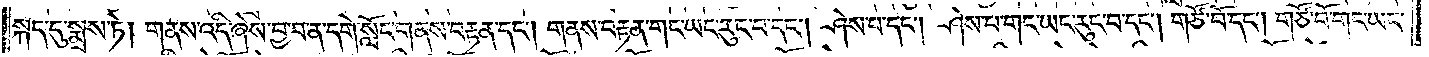སྐད་དུ་སྨྲས་ཏེ། གནས་འདི་ཞེས་བྱ་བ་ན་དགེ་སློང་གནས་བརྟན་དང༌། གནས་བརྟན་གང་ཡང་རུང་བ་དང༌། ཤེས་པ་དང༌། ཤེས་པ་གང་ཡང་རུང་བ་དང༌། གཙོ་བོ་དང༌། གཙོ་བོ་གང་ཡང་
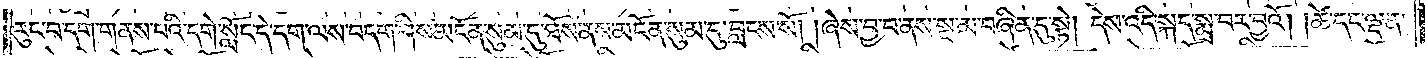རུང་བ་དག་གནས་པའི་དགེ་སློང་དེ་དག་ལས་བདག་གིས་མངོན་སུམ་དུ་ཐོས་ནས་མངོན་སུམ་དུ་བླངས་སོ། །ཞེས་བྱ་བ་ནས་སྔ་མ་བཞིན་དུ་སྟེ། དེས་འདི་སྐད་སྨྲ་བར་བྱའོ། །ཚེ་དང་ལྡན་
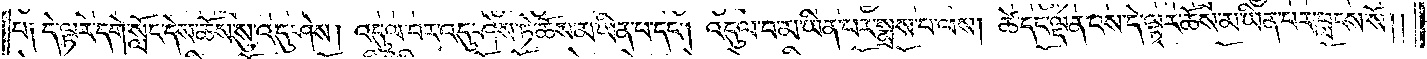པ༑ དེ་ལྟར་དགེ་སློང་དེས་ཆོས་སུ་འདུ་ཤེས། འདུལ་བར་འདུ་ཤེས་ཏེ་ཆོས་མ་ཡིན་པ་དང༌། འདུལ་བ་མ་ཡིན་པར་སྨྲས་པ་ལས། ཚེ་དང་ལྡན་པས་དེ་ལྟར་ཆོས་མ་ཡིན་པར་བླངས་སོ། །
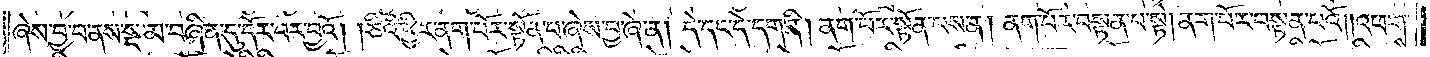ཞེས་བྱ་བ་ནས་སྔ་མ་བཞིན་དུ་དོར་བར་བྱའོ། །ཅིའི་ཕྱིར་ནག་པོར་སྟོན་པ་ཞེས་བྱ་ཞེ་ན། དེ་དང་དེ་དག་ནི། ནག་པོར་སྟོན་པས་ན། ནག་པོར་བསྟན་པ་སྟེ། ནག་པོར་བསྟན་པའོ། །འཕགས་
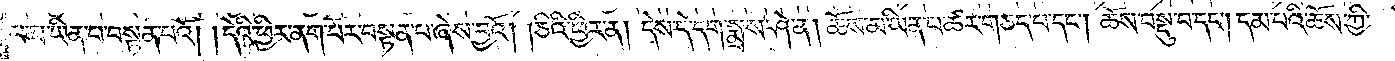པ་མ་ཡིན་པ་བསྟན་པའོ། །དེའི་ཕྱིར་ནག་པོར་བསྟན་པ་ཞེས་བྱའོ། །ཅིའི་ཕྱིར་ན། དེས་དེ་དག་སྨྲས་ཤེ་ན། ཆོས་མ་ཡིན་པ་ཚར་གཅད་པ་དང༌། ཆོས་བསྡུ་བ་དང༌། དམ་པའི་ཆོས་ཀྱི་
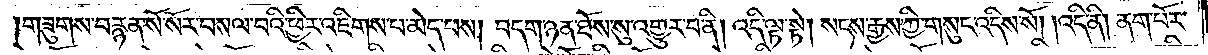གཟུགས་བརྙན་སོ་སོར་བསལ་བའི་ཕྱིར་འཇིགས་པ་མེད་པས། བདག་ཉན་ཐོས་སུ་འགྱུར་བ་ནི། འདི་ལྟ་སྟེ། སངས་རྒྱས་ཀྱི་གསུང་འདིས་སོ། །འདི་ནི། ནག་པོར་
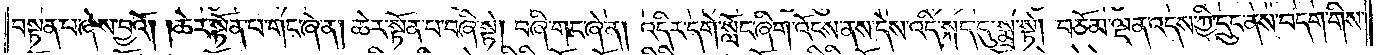བསྟན་པ་ཞེས་བྱའོ། །ཆེར་སྟོན་པ་གང་ཞེ་ན། ཆེར་སྟོན་པ་བཞི་སྟེ། བཞི་གང་ཞེ་ན། འདིར་དགེ་སློང་ཞིག་འོངས་ནས་དེས་འདི་སྐད་དུ་སྨྲ་སྟེ། བཅོམ་ལྡན་འདས་ཀྱིས་དྲུང་ནས་བདག་གིས་
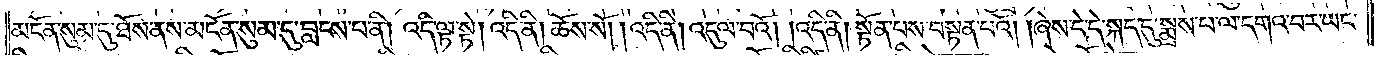མངོན་སུམ་དུ་ཐོས་ནས་མངོན་སུམ་དུ་བླངས་པ་ནི། འདི་ལྟ་སྟེ། འདི་ནི། ཆོས་སོ། །འདི་ནི། འདུལ་བའོ། །འདི་ནི། སྟོན་པས་བསྟན་པའོ། །ཞེས་དེ་དེ་སྐད་དུ་སྨྲས་པ་ལ་དགའ་བར་ཡང་
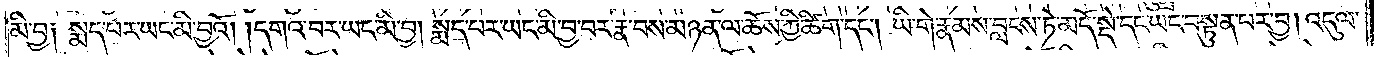མི་བྱ༑ སྨད་པར་ཡང་མི་བྱའོ། །དགའ་བར་ཡང་མི་བྱ། སྨད་པར་ཡང་མི་བྱ་བར་རྣ་བས་མཉན་ལ་ཆོས་ཀྱི་ཚིག་དང༌། ཡི་གེ་རྣམས་བླངས་ཏེ་མདོ་སྡེ་དང་ཡང་བསྟུན་པར་བྱ། འདུལ་
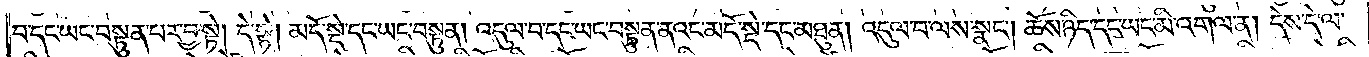བ་དང་ཡང་བསྟུན་པར་བྱ་སྟེ། དེ་སྟེ། མདོ་སྡེ་དང་ཡང་བསྟུན། འདུལ་བ་དང་ཡང་བསྟུན་ནའང་མདོ་སྡེ་དང་མཐུན། འདུལ་བ་ལས་སྣང༌། ཆོས་ཉིད་དང་ཡང་མི་འགལ་ན། དེས་དེ་ལ་
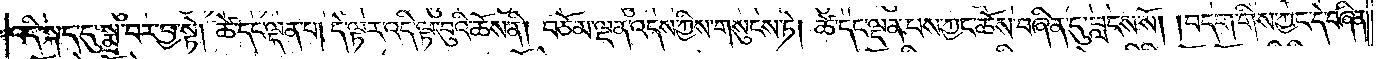འདི་སྐད་དུ་སྨྲ་བར་བྱ་སྟེ། ཚེ་དང་ལྡན་པ། དེ་ལྟར་འདི་ལྟ་བུའི་ཆོས་ནི། བཅོམ་ལྡན་འདས་ཀྱིས་གསུངས་ཏེ། ཚེ་དང་ལྡན་པས་ཀྱང་ཆོས་བཞིན་དུ་བླངས་སོ། །བདག་གིས་ཀྱང་དེ་བཞིན་
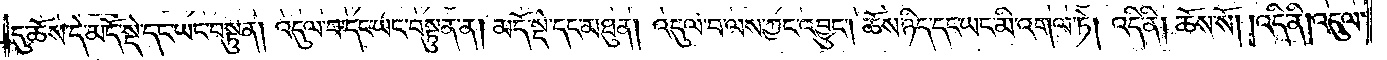དུ་ཆོས་དེ་མདོ་སྡེ་དང་ཡང་བསྟུན། འདུལ་བ་དང་ཡང་བསྟུན་ན། མདོ་སྡེ་དང་མཐུན། འདུལ་བ་ལས་ཀྱང་འབྱུང༌། ཆོས་ཉིད་དང་ཡང་མི་འགལ་ཏེ། འདི་ནི། ཆོས་སོ། འདི་ནི། འདུལ་
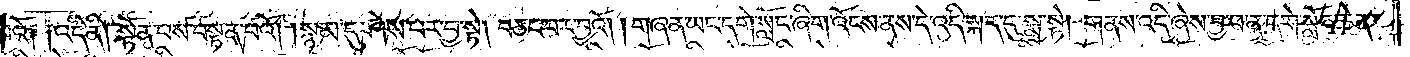བའོ༑ ༑འདི་ནི། སྟོན་པས་བསྟན་པའོ། །སྙམ་དུ་ཤེས་པར་བྱ་སྟེ། བཅང་བར་བྱའོ། །གཞན་ཡང་དགེ་སློང་ཞིག་འོངས་ནས་དེ་འདི་སྐད་དུ་སྨྲ་སྟེ། གནས་འདི་ཞེས་བྱ་བ་ན་དགེ་སློང་ཆེན་
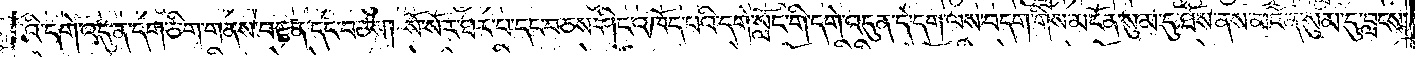པོའི་དགེ་འདུན་དག་ཅིག་གནས་བརྟན་དང་བཅས། སོ་སོར་ཐར་པ་དང་བཅས་ཤིང་འཁོད་པའི་དགེ་སློང་གི་དགེ་འདུན་དེ་དག་ལས་བདག་གིས་མངོན་སུམ་དུ་ཐོས་ནས་མངོན་སུམ་དུ་བླངས་
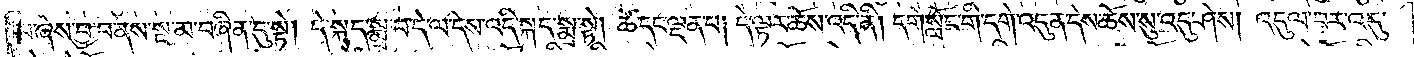པ་ཞེས་བྱ་བ་ནས་སྔ་མ་བཞིན་དུ་སྟེ། དེ་སྐད་སྨྲ་བ་དེ་ལ་དེས་འདི་སྐད་སྨྲ་སྟེ། ཚེ་དང་ལྡན་པ། དེ་ལྟར་ཆོས་འདི་ནི། དགེ་སློང་གི་དགེ་འདུན་དེས་ཆོས་སུ་འདུ་ཤེས། འདུལ་བར་འདུ་
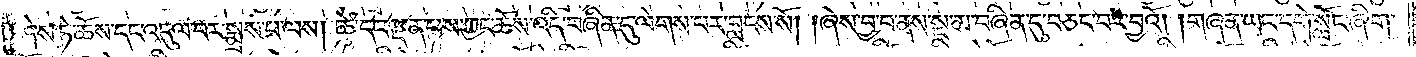ཤེས་ཏེ་ཆོས་དང་འདུལ་བར་སྨྲས་པ་ལས། ཚེ་དང་ལྡན་པས་ཀྱང་ཆོས་འདི་བཞིན་དུ་ལེགས་པར་བླངས་སོ། །ཞེས་བྱ་བ་ནས་སྔ་མ་བཞིན་དུ་བཅང་བར་བྱའོ། །གཞན་ཡང་དགེ་སློང་ཞིག་
